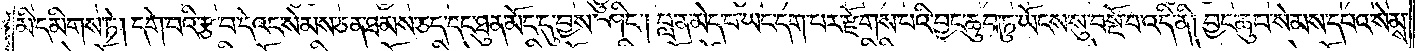མི་དམིགས་ཏེ། དགེ་བའི་རྩ་བ་དེའང་སེམས་ཅན་ཐམས་ཅད་དང་ཐུན་མོང་དུ་བྱས་ཤིང༌། བླ་ན་མེད་པ་ཡང་དག་པར་རྫོགས་པའི་བྱང་ཆུབ་ཏུ་ཡོངས་སུ་བསྔོ་བ་འདི་ནི། བྱང་ཆུབ་སེམས་དཔའ་སེམས་
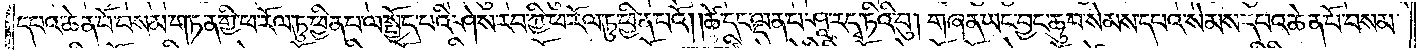དཔའ་ཆེན་པོ་བསམ་གཏན་གྱི་ཕ་རོལ་ཏུ་ཕྱིན་པ་ལ་སྤྱོད་པའི་ཤེས་རབ་ཀྱི་ཕ་རོལ་ཏུ་ཕྱིན་པའོ། །ཚེ་དང་ལྡན་པ་ཤཱ་རདྭ་ཏིའི་བུ། གཞན་ཡང་བྱང་ཆུབ་སེམས་དཔའ་སེམས་དཔའ་ཆེན་པོ་བསམ་
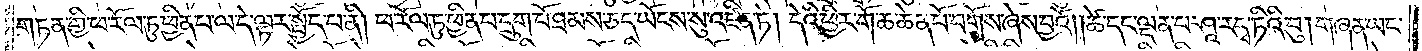གཏན་གྱི་ཕ་རོལ་ཏུ་ཕྱིན་པ་ལ་དེ་ལྟར་སྤྱོད་པ་ནི། ཕ་རོལ་ཏུ་ཕྱིན་པ་དྲུག་པོ་ཐམས་ཅད་ཡོངས་སུ་འཛིན་ཏེ། དེའི་ཕྱིར་གོ་ཆ་ཆེན་པོ་བགོས་ཞེས་བྱའོ། །ཚེ་དང་ལྡན་པ་ཤཱ་རདྭ་ཏིའི་བུ། གཞན་ཡང་
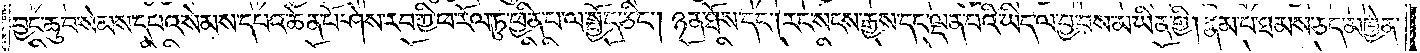བྱང་ཆུབ་སེམས་དཔའ་སེམས་དཔའ་ཆེན་པོ་ཤེས་རབ་ཀྱི་ཕ་རོལ་ཏུ་ཕྱིན་པ་ལ་སྤྱོད་ཅིང༌། ཉན་ཐོས་དང༌། རང་སངས་རྒྱས་དང་ལྡན་པའི་ཡིད་ལ་བྱ་བས་མ་ཡིན་གྱི། རྣམ་པ་ཐམས་ཅད་མཁྱེན་
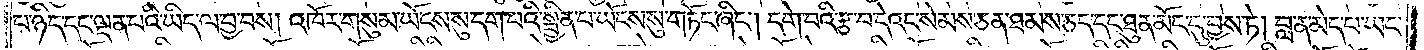པ་ཉིད་དང་ལྡན་པའི་ཡིད་ལ་བྱ་བས། འཁོར་གསུམ་ཡོངས་སུ་དག་པའི་སྦྱིན་པ་ཡོངས་སུ་གཏོང་ཞིང༌། དགེ་བའི་རྩ་བ་དེའང་སེམས་ཅན་ཐམས་ཅད་དང་ཐུན་མོང་དུ་བྱས་ཏེ། བླ་ན་མེད་པ་ཡང་
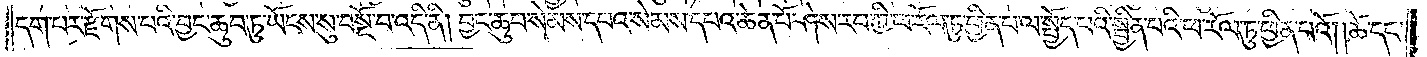དག་པར་རྫོགས་པའི་བྱང་ཆུབ་ཏུ་ཡོངས་སུ་བསྔོ་བ་འདི་ནི། བྱང་ཆུབ་སེམས་དཔའ་སེམས་དཔའ་ཆེན་པོ་ཤེས་རབ་ཀྱི་ཕ་རོལ་ཏུ་ཕྱིན་པ་ལ་སྤྱོད་པའི་སྦྱིན་པའི་ཕ་རོལ་ཏུ་ཕྱིན་པའོ། །ཚེ་དང་
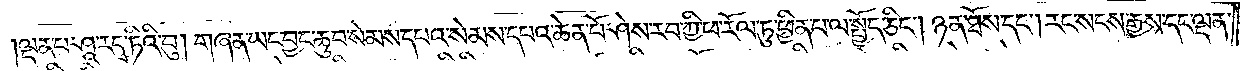ལྡན་པ་ཤཱ་རདྭ་ཏིའི་བུ། གཞན་ཡང་བྱང་ཆུབ་སེམས་དཔའ་སེམས་དཔའ་ཆེན་པོ་ཤེས་རབ་ཀྱི་ཕ་རོལ་ཏུ་ཕྱིན་པ་ལ་སྤྱོད་ཅིང༌། ཉན་ཐོས་དང༌། རང་སངས་རྒྱས་དང་ལྡན་
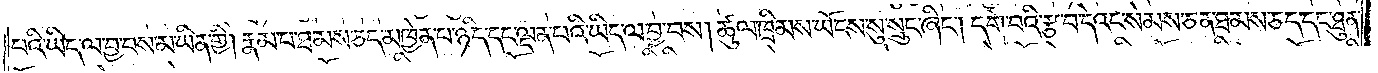པའི་ཡིད་ལ་བྱ་བས་མ་ཡིན་གྱི། རྣམ་པ་ཐམས་ཅད་མཁྱེན་པ་ཉིད་དང་ལྡན་པའི་ཡིད་ལ་བྱ་བས། ཚུལ་ཁྲིམས་ཡོངས་སུ་སྲུང་ཞིང༌། དགེ་བའི་རྩ་བ་དེའང་སེམས་ཅན་ཐམས་ཅད་དང་ཐུན་
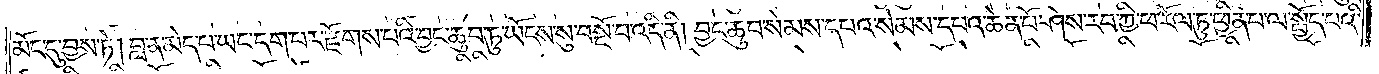མོང་དུ་བྱས་ཏེ། བླ་ན་མེད་པ་ཡང་དག་པར་རྫོགས་པའི་བྱང་ཆུབ་ཏུ་ཡོངས་སུ་བསྔོ་བ་འདི་ནི། བྱང་ཆུབ་སེམས་དཔའ་སེམས་དཔའ་ཆེན་པོ་ཤེས་རབ་ཀྱི་ཕ་རོལ་ཏུ་ཕྱིན་པ་ལ་སྤྱོད་པའི་
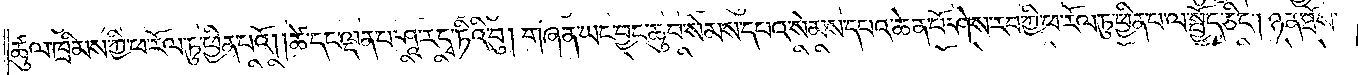ཚུལ་ཁྲིམས་ཀྱི་ཕ་རོལ་ཏུ་ཕྱིན་པའོ། །ཚེ་དང་ལྡན་པ་ཤཱ་རདྭ་ཏིའི་བུ། གཞན་ཡང་བྱང་ཆུབ་སེམས་དཔའ་སེམས་དཔའ་ཆེན་པོ་ཤེས་རབ་ཀྱི་ཕ་རོལ་ཏུ་ཕྱིན་པ་ལ་སྤྱོད་ཅིང༌། ཉན་ཐོས་
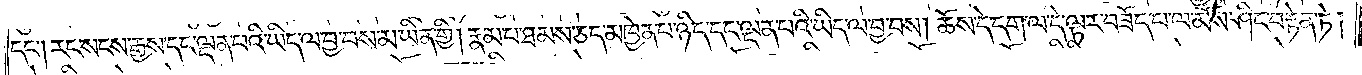དང༌། རང་སངས་རྒྱས་དང་ལྡན་པའི་ཡིད་ལ་བྱ་བས་མ་ཡིན་གྱི། རྣམ་པ་ཐམས་ཅད་མཁྱེན་པ་ཉིད་དང་ལྡན་པའི་ཡིད་ལ་བྱ་བས། ཆོས་དེ་དག་ལ་དེ་ལྟར་བཟོད་པ་ལ་མོས་ཤིང་བརྟེན་ཏེ།
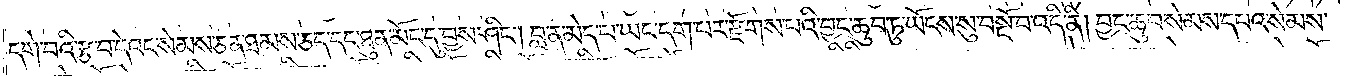དགེ་བའི་རྩ་བ་དེའང་སེམས་ཅན་ཐམས་ཅད་དང་ཐུན་མོང་དུ་བྱས་ཤིང༌། བླ་ན་མེད་པ་ཡང་དག་པར་རྫོགས་བའི་བྱང་ཆུབ་ཏུ་ཡོངས་སུ་བསྔོ་བ་འདི་ནི། བྱང་ཆུབ་སེམས་དཔའ་སེམས་
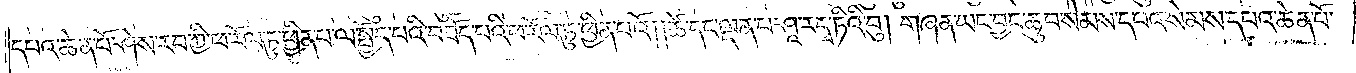དཔའ་ཆེན་པོ་ཤེས་རབ་ཀྱི་ཕ་རོལ་ཏུ་ཕྱིན་པ་ལ་སྤྱོད་པའི་བཟོད་པའི་ཕ་རོལ་ཏུ་ཕྱིན་པའོ། །ཚེ་དང་ལྡན་པ་ཤཱ་རདྭ་ཏིའི་བུ། གཞན་ཡང་བྱང་ཆུབ་སེམས་དཔའ་སེམས་དཔའ་ཆེན་པོ་
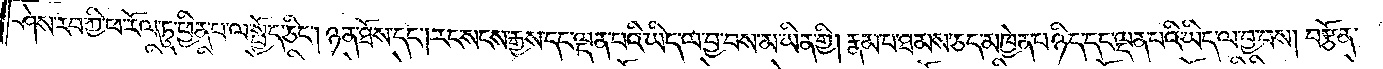ཤེས་རབ་ཀྱི་ཕ་རོལ་ཏུ་ཕྱིན་པ་ལ་སྤྱོད་ཅིང༌། ཉན་ཐོས་དང༌། རང་སངས་རྒྱས་དང་ལྡན་པའི་ཡིད་ལ་བྱ་བས་མ་ཡིན་གྱི། རྣམ་པ་ཐམས་ཅད་མཁྱེན་པ་ཉིད་དང་ལྡན་པའི་ཡིད་ལ་བྱ་བས། བརྩོན་
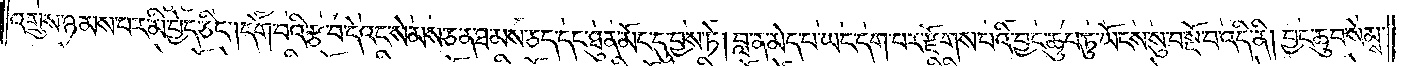འགྲུས་ཉམས་པར་མི་བྱེད་ཅིང༌། དགེ་བའི་རྩ་བ་དེའང་སེམས་ཅན་ཐམས་ཅད་དང་ཐུན་མོང་དུ་བྱས་ཏེ། བླ་ན་མེད་པ་ཡང་དག་པར་རྫོགས་པའི་བྱང་ཆུབ་ཏུ་ཡོངས་སུ་བསྔོ་བ་འདི་ནི། བྱང་ཆུབ་སེམས་
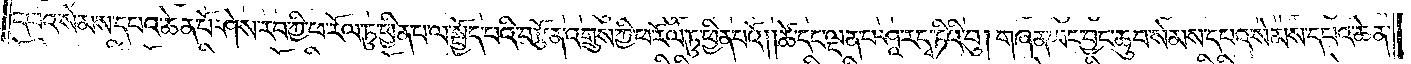དཔའ་སེམས་དཔའ་ཆེན་པོ་ཤེས་རབ་ཀྱི་ཕ་རོལ་ཏུ་ཕྱིན་པ་ལ་སྤྱོད་པའི་བརྩོན་འགྲུས་ཀྱི་ཕ་རོལ་ཏུ་ཕྱིན་པའོ། །ཚེ་དང་ལྡན་པ་ཤཱ་རདྭ་ཏིའི་བུ། གཞན་ཡང་བྱང་ཆུབ་སེམས་དཔའ་སེམས་དཔའ་ཆེན་
